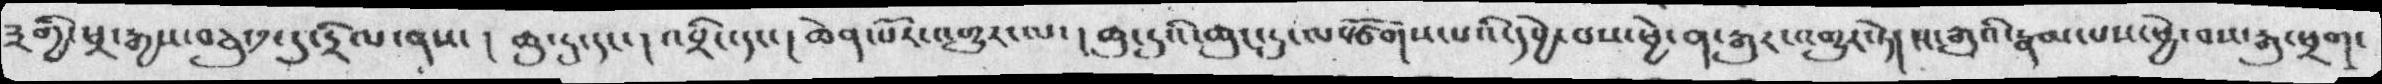༣གྱི་ཕྲ་རྒྱས་བཅུ་༡་དུ་དྲིལ་ནས་། ཆུ་ངུ་དང་། འབྲིང་དང་། ཆེན་པོར་འགྱུར་ལ་། ཆུ་ངུའི་ཆུང་ངུ་ལསྩོགས་པའི་དབྱེ་བས་ཕྱེ་ན་རྒུར་འགྱུར་ཏེ་། ས་རྒུའི་རྣམ་པས་ཕྱེ་བས་རྒུ་ཕྲག་
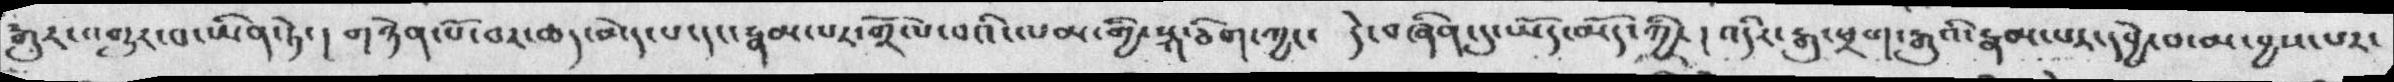རྒུར་འགྱུར་བ་ཡིན་ཏེ་། གཉེན་པོ་བར་ཆད་མེད་པ་དང་རྣམ་པར་གྲོལ་བའི་ལམ་གྱི་སྐ་ཅིག་ཀྱང་  དེ་བཞིན་དུ་ཡོད་མོད་ཀྱི་། འདིར་རྒུ་ཕྲག་རྒུའི་རྣམ་པར་དབྱེ་བ་མ་བྱས་པར་
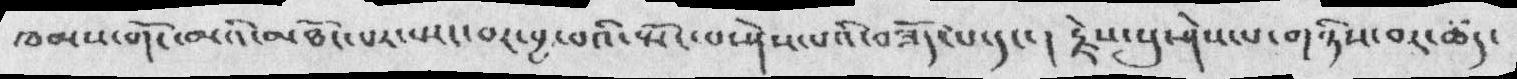ཁམས་གོང་མའི་མཐོང་པར་སོང་བར་བྱ་བའི་སྤོང་བ་ཤེས་པའི་བཟོད་པ་དང་། རྗེས་སུ་ཤེས་པ་གཉིས་བར་ཆད་
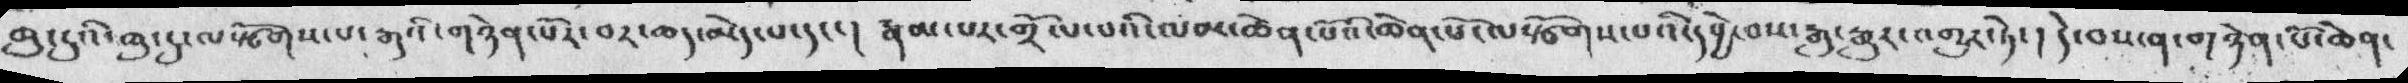ཆུ་ངུའི་ཆུ་ངུ་ལསཙོགས་པ་རྒུའི་གཉེན་པོར་བར་ཆད་མེད་པ་དང་། རྣམ་པར་གྲོལ་པའི་ལམ་ཆེན་པོའི་ཆེན་པོ་ལསྩོགས་པའི་དབྱེ་བས་རྒུ་རྒུར་འགྱུར་ཏེ་། དེ་བས་ན་གཉེན་པོ་ཆེན་
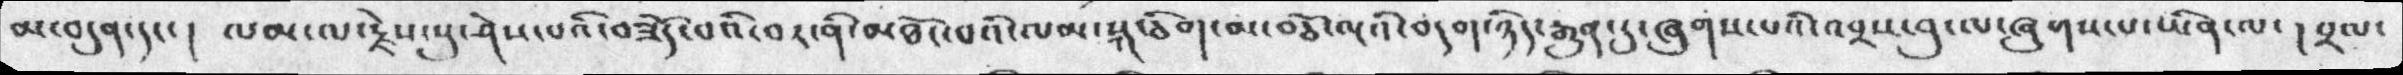མ་བདུན་དང་།  ལམ་ལ་རྗེས་སུ་ཤེས་པའི་བཟོད་པའི་བར་ནི་མཐོང་བའི་ལམ་སྐ་ཅིག་མ་བཅོ་ལྔའི་བདག་ཉིད་རྒྱུན་དུ་ཞུགས་པའི་འབྲས་བུ་ལ་ཞུགས་པ་ཡིན་ལ་ ། བྲལ་
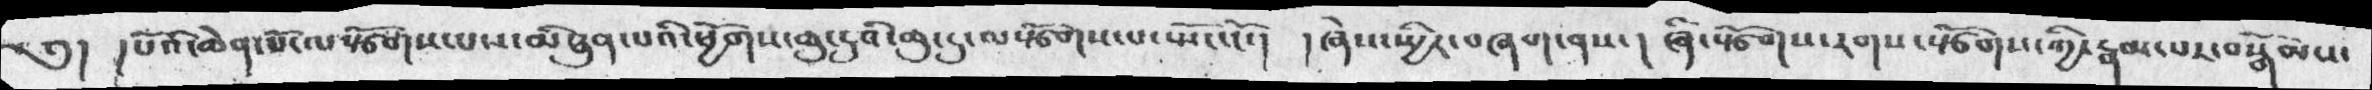༅།  །པོའི་ཆེན་པོ་ལསྩོགས་པས་མིཐུན་པའི་ཕྱོགས་ཆུ་ངུའི་ལསྩོགས་པ་སྤོང་ངོ་།  །ཞེས་སྤྱིར་བཞག་ནས་། ཞི་སྩོགས་རགས་སྩོགས་ཀྱི་རྣམ་པར་བསྒོམས་
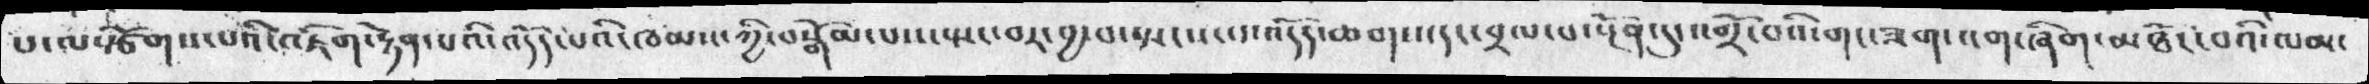པ་ལསྩོགས་པའི་འཇིག་རྟེན་པའི་འདོད་པའི་ཁམས་ཀྱི་བསྒོམ་པས་སྤང་བར་བྱ་བ་སྤངས་པ་འདོད་ཆགས་དང་བྲལ་བ་སྔོན་དུ་འགྲོ་བའི་གང་ཟག་འག་ཞིག་མཐོང་བའི་ལམ་
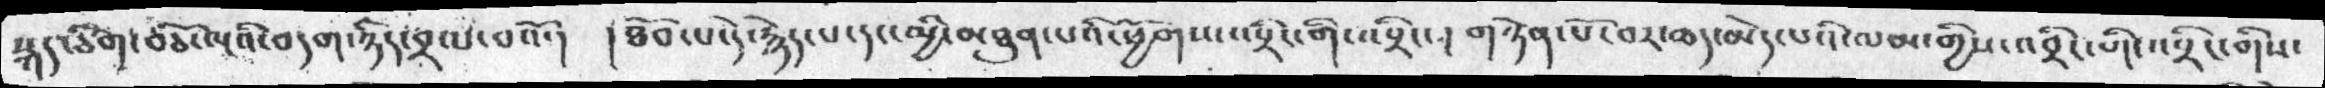སྐད་ཅིག་བཅོ་ལྔའི་བདག་ཉིད་བྲལ་བའོ་། །ཐོབ་པ་དེ་རྙེད་པ་དང་མྱི་མཐུན་པའི་ཕྱོགས་འབྲིང་གི་འབྲིང་།  གཉེན་པོ་བར་ཆད་མེད་པའི་ལམ་གྱིས་འབྲིང་གི་འབྲིང་གིས་
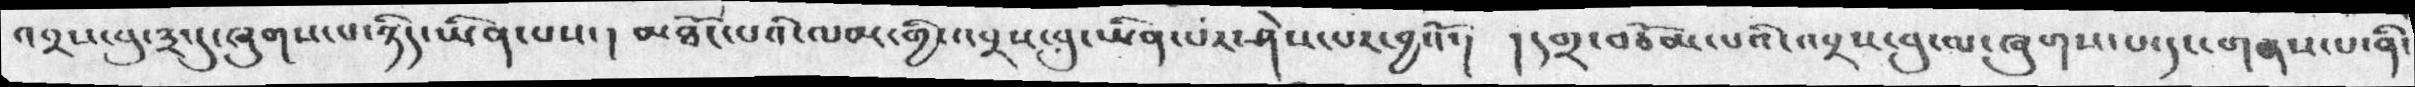འབྲས་བུ་༣་དུ་ཞུགས་པ་ཉིད་ཡིན་པས་།  མཐོང་པའི་ལམ་གྱི་འབྲས་བུ་ཡིན་པར་ཤེས་པར་བྱའོ་། །དགྲ་བཅོམ་པའི་འབྲས་བུ་ལ་ཞུགས་པ་དང་གནས་པ་ནི་
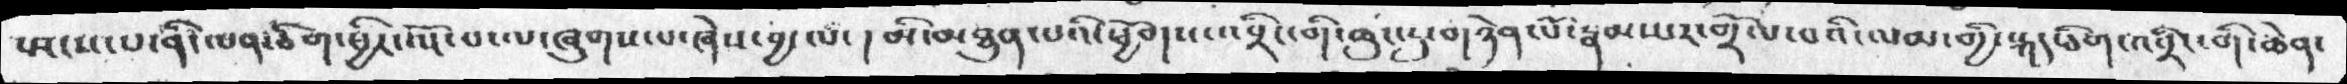སྤངས་པ་ནི་ལན་ཅིག་ཕྱིར་འོང་པ་ལ་ཞུགས་པ་ཞེས་བྱ་ལ་། མི་མཐུན་པའི་ཕྱོགས་འབྲིང་གི་ཆུང་ངུ་གཉེན་པོ་རྣམ་པར་གྲོལ་བའི་ལམ་གྱི་སྐད་ཅིག་འབྲིང་གི་ཆེན་
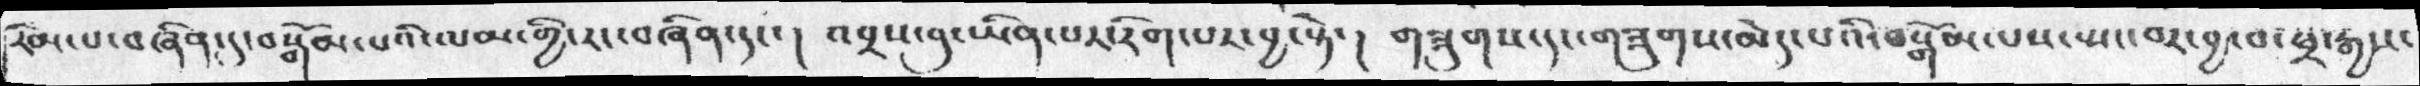རིམ་པ་བཞིན་དུ་བསྒོམ་པའི་ལམ་གྱི་རང་བཞིན་དང་།  འབྲས་བུ་ཡིན་པར་རིག་པར་བྱ་སྟེ་།  གཟུགས་དང་གཟུགས་མེད་པའི་བསྒོམ་པས་སྤང་བར་བྱ་བ་ཕྲ་རྒྱས་
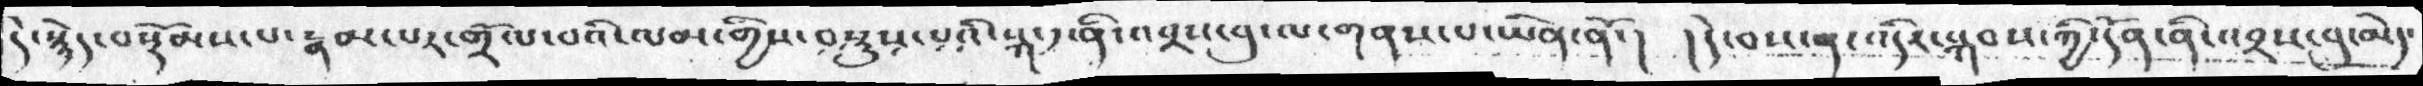དེ་སྙེད་བསྡོམས་པ་རྣམ་པར་གྲོལ་བའི་ལམ་གྱིས་བསྡུས་པའི་སྐ་༡་ནི་འབྲས་བུ་ལ་གནས་པ་ཡིན་ནོ་།  །དེ་བས་ན་འདིར་སྐབས་ཀྱི་དོན་ནི་འབྲས་བུ་མེད་
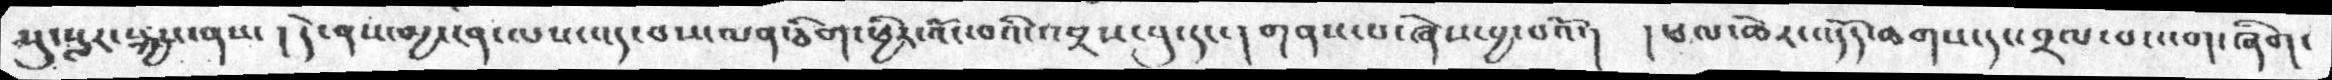སུ་སླར་སྐྱས་ནས་། དེ་ནས་མྱ་ངན་ལས་འདས་བས་ལན་ཅིག་ཕྱིར་འོང་བའི་འབྲས་བུ་དང་། གནས་པ་ཞེས་བྱ་བའོ་། །ཕལ་ཆེར་འདོད་ཆགས་དང་བྲལ་བ་འག་ཞིག་
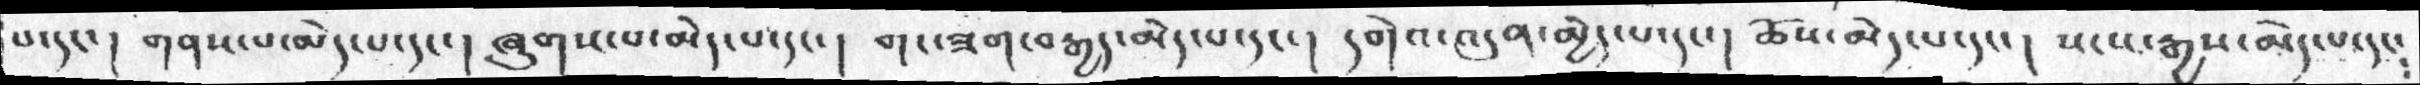པ་དང་། གནས་པ་མེད་པ་དང་། ཞུགས་པ་མེད་པ་དང་། གང་ཟག་བརྒྱད་མེད་པ་དང་།  དགེའ་འདུན་མྱེད་པ་དང་། ཆོས་མེད་པ་དང་། སངས་རྒྱས་མེད་པ་དང༴
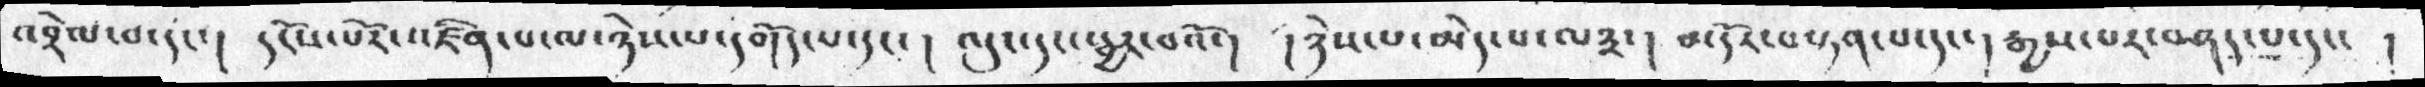འབྲེལ་བ་དང་། དངོས་པོར་འཛིན་པ་ལ་ཉེས་པ་དགོད་པ་དང་།  ལུང་དང་སྦྱར་བའོ་།  ། ཉེས་པ་མེད་པ་ལ༣་།  མདོར་བསྟན་པ་དང་།  རྒྱས་པར་བཤད་པ་དང་  །
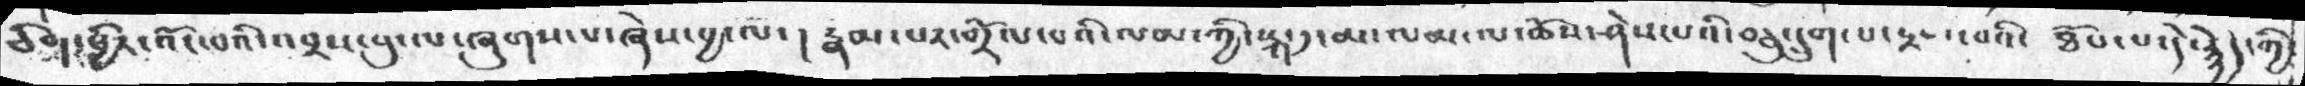ཅིག་ཕྱིར་འོང་པའི་འབྲས་བུ་ལ་ཞུགས་པ་ཞེས་བྱ་ལ་།  རྣམ་པར་གྲོལ་པའི་ལམ་ཀྱི་སྐ་༡་མ་ལམ་ལ་ཆོས་ཤེས་པའི་བཅུ་དྲུག་པ་རྟ་འབའི་  ཐོབ་པ་དེ་རྙེད་ཀྱི་
